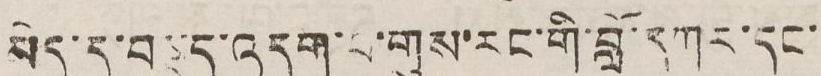མེད་དུ་བསྡད་འདུག་པ་གུས་རང་གི་བློ་དཀར་དང་
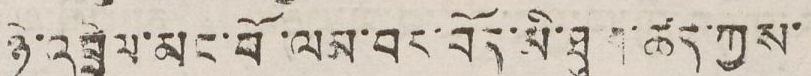ཉེ་འབྲེལ་མང་པོ་ལམ་བར་བོད་མི་ཐུག་ཚད་ཀྱིས་
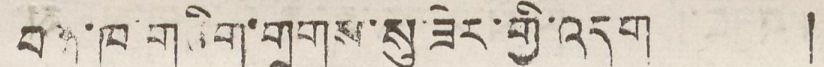བ ཁ་གཅིག་གྲགས་སུ་ཟེར་གྱི་འདུག །
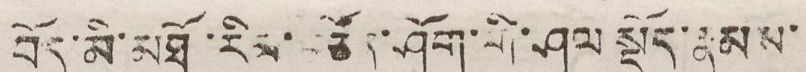བོད་མི་མཐོ་རིམ་བཙོན་ཤོག་གི་ཤུལ སྡོད་རྣམས་
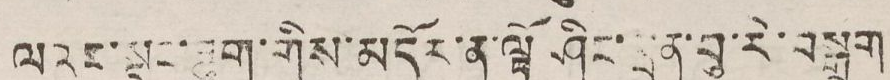ལའང་སྡང་ཟུག་གིས་མདོར་ན་ལྟོ ཤིང་དྲན་བྱ་རེ་བསྒུག
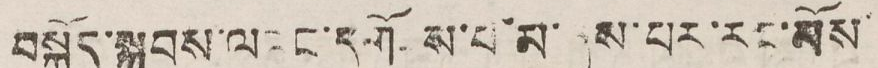བསྐྱོད་སྐབས་ལའང་དགོངས་པ་མ་ཞུས་པར་རང་མོས་
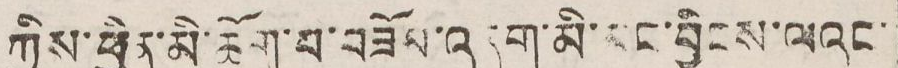ཀྱིས་ཕྱིན་མི་ཆོག་པ་བཟོམ་འདུག་མི་རང་བྱིངས་ལའང་
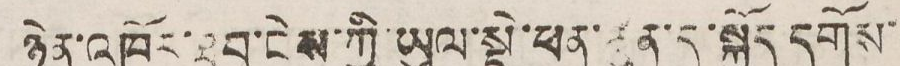ཉེན་འཁོར་ཐུབ་ངེས་ཀྱི་ཡུལ་སྡེ་ཕན་ཚུན་དུ་སྐྱོད དགོས་
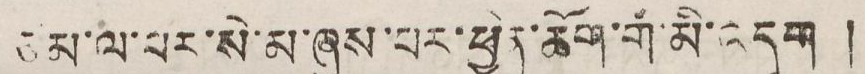ཙམ་ལ་པར་སེ་མ་ཞུས་པར་ཕྱིན་ཆོག་ག་མི་འདུག །
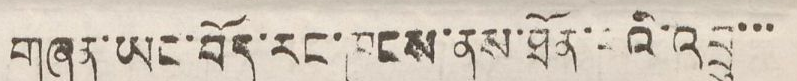གཞན་ཡང་བོད་རང་ཁུངས་ནས་ཐོན་པའི་འབྲུ་་་
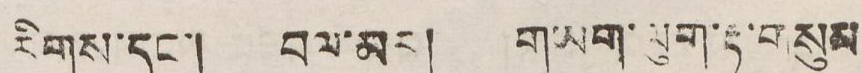རིགས་དང་། བལ་མར། གཡག་ལུག་རྟ་གསུམ
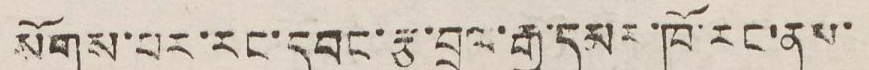སོགས་པར་རང་དབང་རྩ་བྲལ་རྒྱ་དམར་ཁོ་རང་ནས་
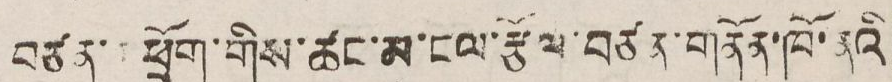བཙན་འཕྲོག་གིས་ཚང་མ་ངལ་རྩོལ་བཙན་གནོན་ཁོ་ནའི
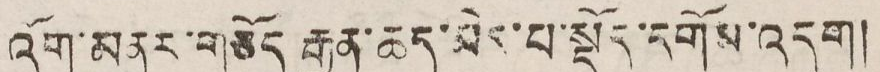འོག་མནར་གཅོད རྒྱུན་ཆད་མེད་པ་སྡོད་དགོས་འདུག།
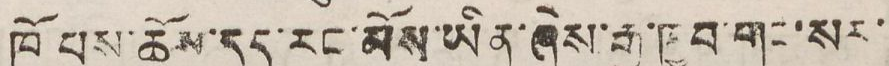ཁོ པས་ཆོས་དད་རང་མོས་ཡིན་རྒྱ་ཁྱབ་གང་སར་
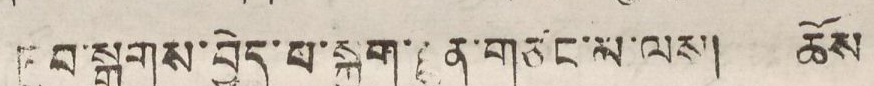ཁྱབ་སྒྲགས་བྱེད་པ་སྐྱག་རྫུན་གཙང་མ་ལས། ཆོས
